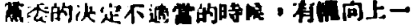黨委的決定不適當的時候，有權向上一
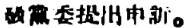級黨委提出申訴。
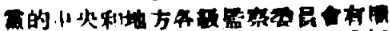黨的中央和地方各級監察委員會有權
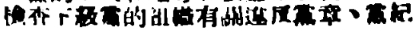檢查下級黨的組織有關違反黨章、黨紀
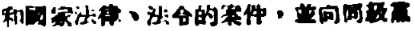和國家法律、法令的案件，並向同級黨
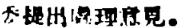委提出處理意見。
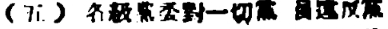（五）各級黨委對一切黨 員違反黨
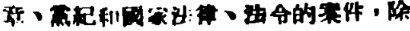章、黨紀和國家法律、法令的案件，除
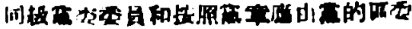同級黨委委員和按照黨章應由黨的區委
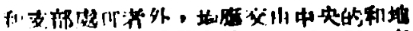和支部處理者外，均應交由中央的和地
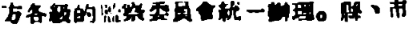方各級的監察委員會統一辦理。縣、市
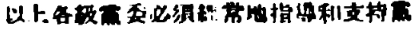以上各級黨委必須經常地指導和支持黨
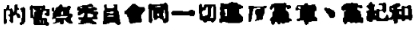的監察委員會同一切違反黨章、黨紀和
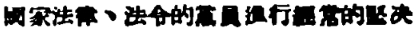國家法律、法令的黨員進行經常的堅決
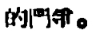的鬥爭。
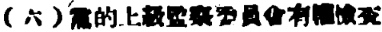（六）黨的上級監察委員會有權檢查
